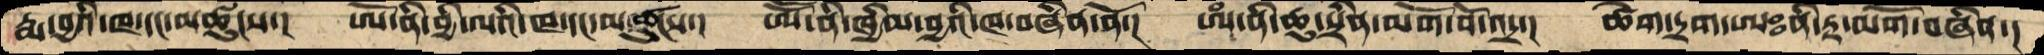རྨ་བྱའི་ཁ་དང་མཚུངས་།  ཨོ་ནི་བྱི་ལའི་ཁ་དང་མཚུངས་།  ཨོ་ནི་ཁྱིམ་བྱའི་ཁ་བཞིན་ནོ་།  ཨཾ་ནི་ཆུ་སྲིན་མགོ་བོ་འདྲ་།  ཚེག་དྲག་ཨཿནི་རྟ་མགོ་བཞིན་།
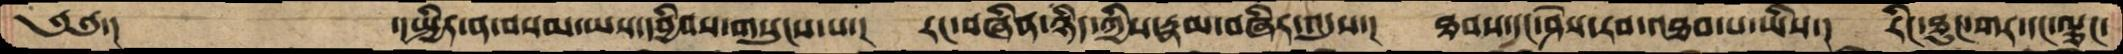༄༅་།          ་།སྤྱིར་ན་བསམ་ཡས་དབྱིབས་གསུངས་པ་།  རང་བཞིན་ཉིད་ཀྱིས་རྣམ་བཞིར་འདུས་།  ཐབས་དང་ཤེས་རབ་འཐབ་པ་ཡིས་།  རིང་ཐུང་གར་དང་ལྕང་
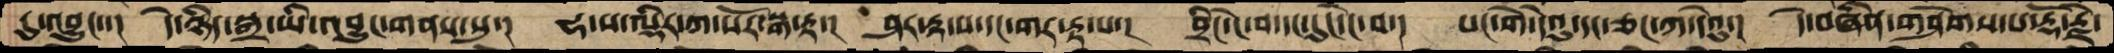དུ་འབྱུང་་།  དེ་ཉིད་སྒྲ་ཡི་འབྱུང་གནས་སུ་།  ཧ་པ་ལྡིར་ཀ་སོར་སྒ་རྟ་།  ཤར་རྟ་ས་དང་གར་རྟ་པ་།  བྲིང་ངེ་བ་དང་དུང་ངེ་བ་།  སང་གེ་དེའུ་དང་ཅང་ཀ་དེའུ་།  དེ་བཞིན་གཤེགས་པ་རྡོ་རྗེ་
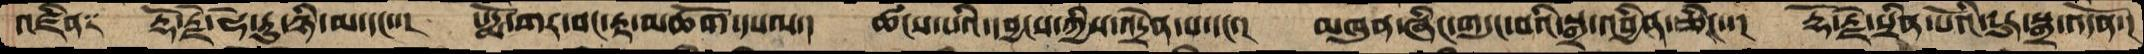འཛིན༑  རྡོ་རྗེ་ཧེ་རུ་ཉི་མ་དང་་།  པདྨོ་གར་བང་རྟ་མཆོག་དཔལ་།  ཚངས་པའི་དབྱངས་ཀྱིས་འདྲེན་པ་དང་་།  མཁུན་ཞིང་གདུང་བའི་སྒྲ་འབྱིན་ཅིང་་།  རྡོ་རྗེ་སྲིན་པོའི་ངུར་སྒྲ་འདོན་།
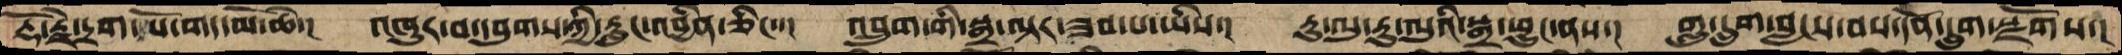རྡོ་རྗེ་དྲག་པོ་གད་མོ་ཆེ་།  འཁུར་བ་དབུགས་ཀྱི་རླུང་འབྱིན་ཅིང་་།  འབྲུག་གི་སྒྲ་ལྟར་ཟབ་པ་ཡིས་།  རུ་ལུ་རུ་ལུའི་སྒྲ་ཕྱུང་ནས་།  གླུ་དྲུག་བླངས་བས་དོན་དྲུག་སྫོགས་།
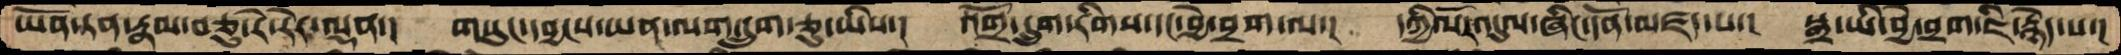ཡོན་ཏན་རྣམ་བཅུ་རེ་རེར་ལྡན་།  གསུང་དབྱངས་ཡན་ལག་དྲུག་ཅུ་ཡིས་།  འགྲོ་དྲུག་རིགས་དང་བྱེ་བྲག་ལ་།  དཀྱིལོར་འདུལ་ཞིང་དོན་་མཛད་པ་།  སྒྲ་ཡི་བྱེ་བྲག་ཇི་སྙེད་པ་།
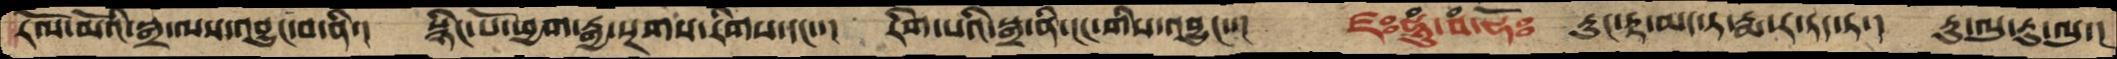རོལ་མོའི་སྒྲ་ལས་འབྱུང་བ་ནི་།   སྙིང་པོ་ཕྱག་རྒྱ་སྔགས་རིགས་དང་་།  རིག་པའི་སྒྲ་ནི་ངང་གིས་འབྱུང་་།  ཛཿཧཱུཾ་བཾ་ཧོཿ  རུང་རྟ་མད་ཏ་རྨ་ར་ཏད་ཏ་།  རུ་ལུ་རུ་ལུ་།
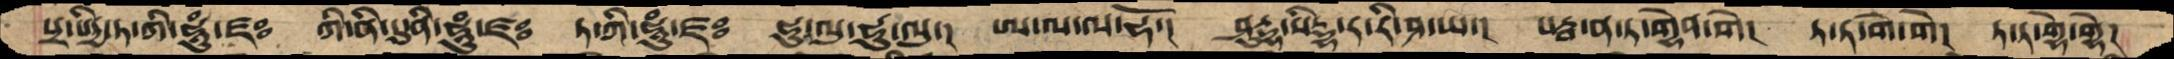པྲ་པིདྱ་ཏ་ཀི་ཧཱུཾ་ཛཿ  ཀི་ནི་དུ་ནི་ཧཱུཾ་ཛཿ  ཏ་ཀི་ཧཱུཾ་ཛཿ  ཧུ་ལུ་ཧུ་ལུ་།  ཨ་ལ་ལ་ཧོ་།  ཤུདྡྷ་སིདྡྷ་ར་རི་ཤ་ཡ་།  སརྦ་ན་ཏ་་གྷེན་གེ།  ཏ་ཏ་གེ་གེ།  ཏ་ཏ་གྷེ་གྷེ།
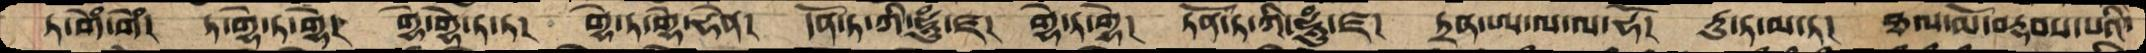ཏ་གེཾ་གེཾ།  ཏ་གྷེ་ཏ་གྷེ།  གྷེ་གྷེ་ཏ་ཏ།  གྷེ་ཏ་གྷེ་ཧེན།  དོན་ཏ་ཀི་ཧཱུཾ་ཛ།  གྷེ་ཏ་གྷེ།  ཏོན་ཏ་ཀི་ཧཱུཾ་ཛ།  ཏྲན་ཨ་ལ་ལ་ཧོ།  ཏུ་ཏ་མ་ཏ།  ཐལ་མོ་བརྡབས་པའི་
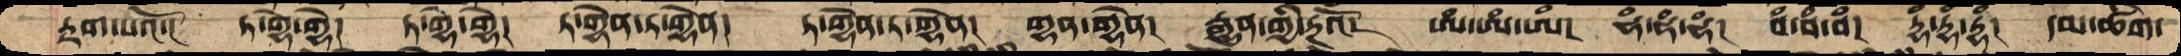རྟག་པའོ་།  ཏ་གྷེ་གྷེ།  ད་གྷེ་གྷེ།  ཏ་གྷེན་ཏ་གྷེན།  ཏ་གྷེན་ཏ་གྷེན།  གྷན་གྷེན།  རྒྱུན་གྱི་རྔའོ་།  ཨཾ་ཨཾ་ཨཾ།  ཧཾ་ཧཾ་ཧཾ།  བཾ་བཾ་བཾ།  དྡྷཾ་དྡྷཾ་དྡྷཾ།   དམ་ཚིག་
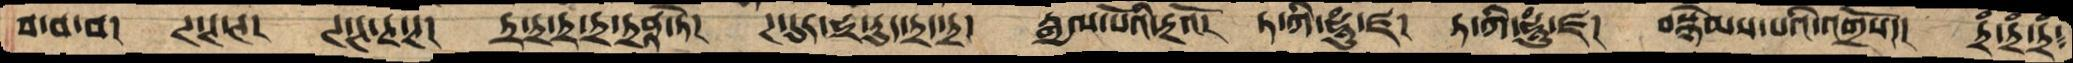བ་བ་བ།  ཊ་ཊ་ཊ།  ཊ་ཊ་ཊ་ཊ།  ཏྲ་ཏྲ་ཏྲ་ཏྲ་ཏྲནཱ་ཏེ།  ཊ་དུར་ཧྲ་ཏུད་ཏྲད་ཏྲ།  རྒྱལ་པོའི་རྔའོ།  ཏ་ཀི་ཧཱུཾ་ཛ།  ཏ་ཀི་ཧཱུཾ་ཛ།  བསྙེམས་པའི་འགྲོས།།།  ཏྲཾ་ཏྲཾ་ཏྲཾ༴
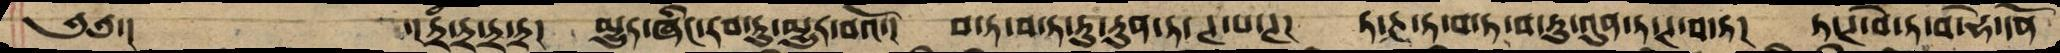༄༅་།        ་།ཏྲཾ་ཏྲ་ཏྲ་ཏྲ།  མྱུར་ཞིང་རབ་ཏུ་མྱུར་བའོ་།  བ་ཏ་བ་ཏ་ཏུ་ཏུན་ཏ་ཊ་པ་ཊ།  ཏ་ཊ་ཏ་བ་ཏ་བ་ཏུ་འུན་ཏ་ཊ་བ་ཏ།  ཏ་ཊ་བེ་ཏ་བ་ཧེ་དོན
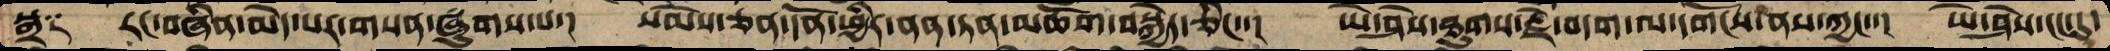སྒྲ༑  རང་བཞིན་མེད་པར་གསན་ཞུགས་པ་།  སེམས་ཅན་དོན་ཕྱིར་ནན་ཏན་མཆོག་བསྐྱེད་ཅིང་་།  ཡེ་ཤེས་ཐུགས་རྗེ་བདག་ལ་དགོངས་ནས་ཀྱང་་།  ཡེ་ཤེས་ངང་དུ་
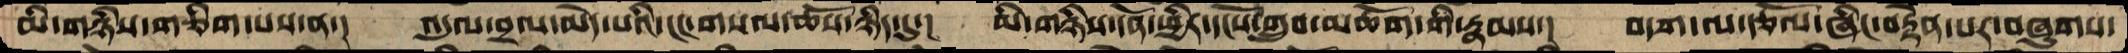མི་གཉིས་གཅིག་པས་ན་།  འདུལ་བྲལ་མེད་པའི་ངང་གསལ་ཆོས་ཉིད་དུ་།  མི་གཉིས་དོན་ཕྱིར་དངོས་གྲུབ་མཆོག་གི་རྣམས་།   བདག་ལ་རྩོལ་ཞིང་བརྟེན་པར་བཞུགས་
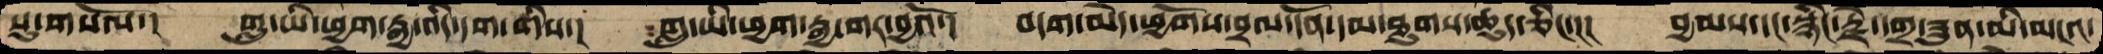སུ་གསོལ་།  གླུ་ཡི་ཕྱག་རྒྱ་འདི་དག་གིས་།  གླུ་ཡི་ཕྱག་རྒྱ་གར་བྱའོ་།   བདག་མེད་ཕྱོགས་བྲལ་དོན་དམ་ཐུགས་ཆུད་ཅིང་།།།  བྱམས་དང་སྙིང་རྗེ་དགྲ་ཟུན་མི་མངའ་
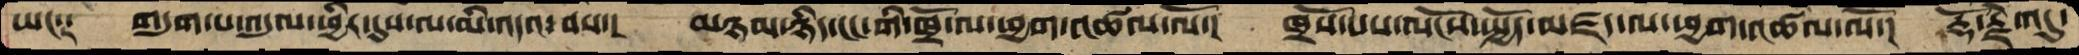ཡང་༑  གདུག་པ་འདུལ་ཕྱིར་དུས་ལ་མི་འདའ་བས་།  མཉམ་ཉིད་ངང་གི་ཁྲོ་ལ་ཕྱག་འཚལ་ལོ་།  ཁྲོས་པས་ལོངས་སྤྱོད་མཛད་ལ་ཕྱག་འཚལ་ལོ་།  རྡོ་རྗེ་འདུ་
